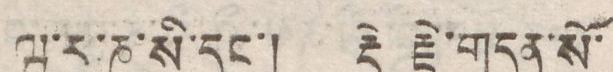ཝ་ར་ཎ་སི་དང་། རྡོ རྗེ་གདན་སོ་
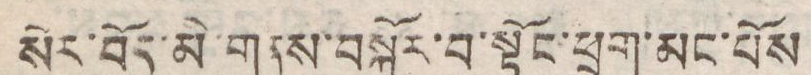སེར་བོད་མི་གནས་བསྐོར་བ་སྟོང་ཕྲག་མང་པོས
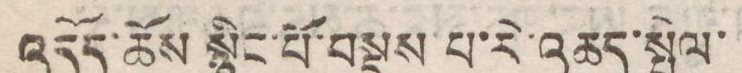འདོད་ཆོས སྙིང་པོ་བསྡུས པ་རེ་འཆད་སྤེལ་
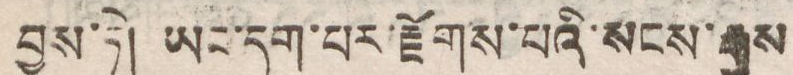བྱས་ཏེ། ཡང་དག་པར་རྫོགས་པའི་སངས་རྒྱས
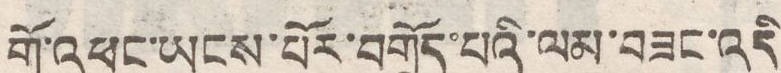གོ་འཕང་ཡངས་པོར་བགྲོད་པའི་ལམ་བཟང་འདི
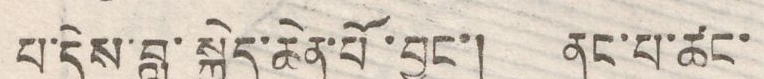པ་དེས་བླ་སྐྱེད་ཆེན་པི་བྱུང་། ནང་པ་ཚང་
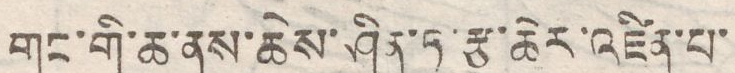གང་གི་ཆ་ནས་ཆེས་ཤིན་ཏུ་རྩ་ཆེར་འཛིན་པ་
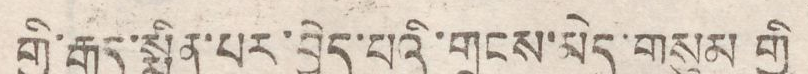གྱི་རྒྱུད་སྨིན་པར་བྱེད་པའི་གྲངས་མེད་གསུམ གྱི
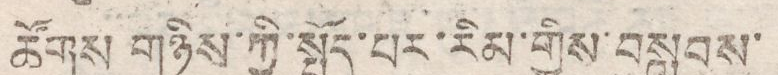ཚོགས གཉིས་ཀྱི་སྤྱོད་པར་རིམ་གྱིས་བསླབས་
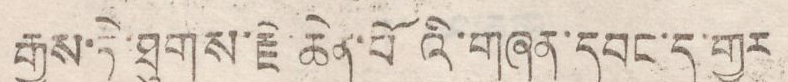རྒྱས་ཏེ་ཐུགས་རྗེ ཆེན་པོའི་གཞན་དབང་དུ་གྱུར
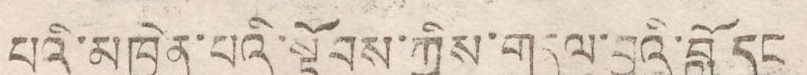པའི་མཁྱེན་པའི་སྟོབས་ཀྱིས་གདུལ་བྱའི་བློ དང
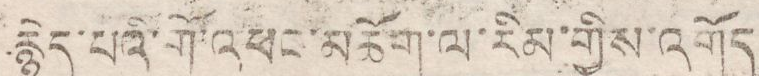རྙེད་པའི་གོ་འཕང་མཆོག་ལ་རིམ་གྱིས་འགོད
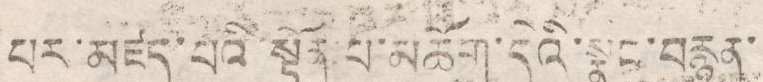པར་མཛད་པའི་སྟོན་པ་མཆོག་དེའི་སྣང་བརྙན་
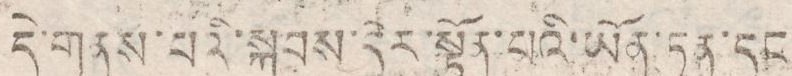དེ་གནས་པའི་སྐབས་དེར་སྟོན་པའི་ཡོན་ཏན་དང
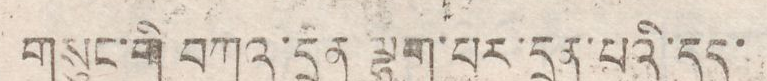གསུང་གི བཀའ་དྲན་ལྷག་པར་དྲན་པའི་དད་
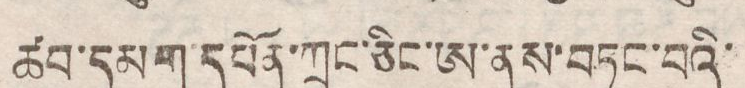ཚབ་དམག་དཔོན་ཀྲང་ཅིང་ཨུ་ནས་བཏང་བའི་
